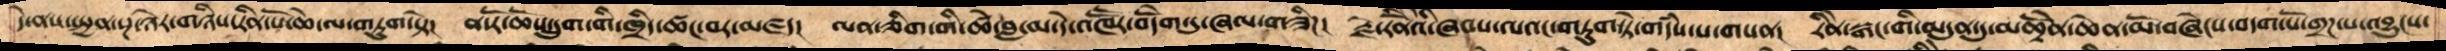དེ་ནས་སྤྱན་སྔ་ཉེར་གཉིས་རིན་པོ་ཆེ་ལ་གཏུག་སྟེ།  ན་རོ་ཆོས་དྲུག་གི་ཁྲིད་ཚང་བར་མཛད།  ལན་ཅིག་གི་ཚེ་བླ་མ་དེ་འཁཽར་བདོེག་དུ་ཞལ་གཟིཌ།  རྗེ་རིནོེའི་ཞབས་ལའང་གཏུག་ཏེ་གདཾས་པ་གསན། རིནེ་སྒང་གི་མདུན་དུ་མཆྟོེན་ཆེན་མོ་བཞེངས་བདག་པོ་་གྲཌ་པ་འབྱུངས་
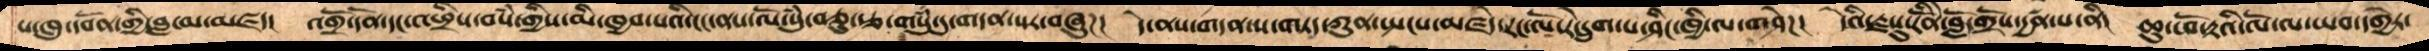པ་ཁུ་དབོན་གྱི་བླ་མ་མཛད།  འགྲོ་དོན་དང་འཕྲིས་བསཾ་གྱིས་མི་ཁྱབ་པའི་ངང་ནས་ལོ་སུཾ་བཅུ་རྩ་གསུཾ་དུ་གདན་སར་བཞུཌ།  དེ་ནས་གདན་ས་གཏད་ཀུན་སྤངས་མཛདེ་རང་ལོ་རེ་དྲུག་པ་ཤིང་ཁྱི་ལ་གཤེཌ།  དེའི་རྗསུ་རོིནེ་བློ་གྲོས་དྱཚན་པ་ནི།  ཆུ་ཕོ་རྟའི་ལོ་ལ་ཡབ་དགྱེར་
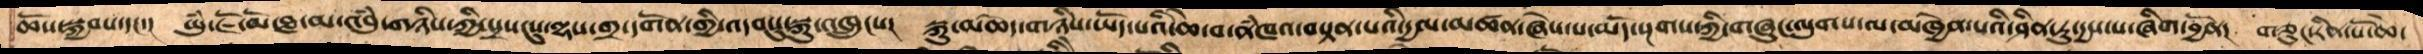ཆོས་སྐྱབས་དང་།  ཡུཾ་ཇོ་མོ་བླ་མ་འབུཾ་གཉིས་ཀྱི་སྲས་སུ་ལྷས་གྲ་དགོན་གྱི་འདབསུ་སྐུ་འཁྲུངས།  སྐུ་མཆེད་གཉིས་ཡོད་པའི་ཆེ་བ་ནཾཁའ་བསྟན་པའི་དྱལ་མཚན་ཞེས་པ་མདོ་སྔགས་ཀྱི་གཞུང་ལུགས་ལ་མཁྱེན་པའི་ཤིན་ཏུ་དྱས་པ་ཞིག་བྱོན།  གཅུང་རིན་པོ་ཆེ་
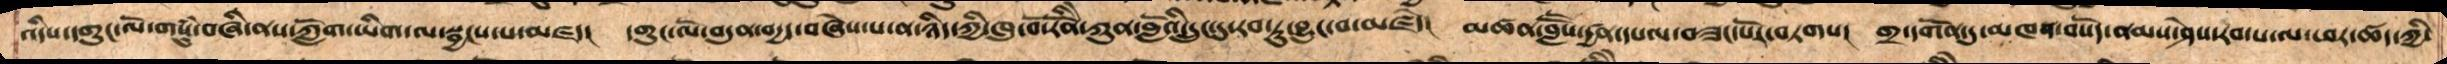འདིས་དགུང་ལོ་གསུཾ་བཞི་ནས་ཀློག་ཡིག་ལ་སྦྱངས་པ་མཛད།  དགུང་ལོ་བདུན་བདྱད་བཞེས་པ་ན་ཉིད་ཀྱི་ཁུ་བོ་རོནེི་ཀུན་བློའི་དྲུང་དུ་རབ་ཏུ་བྱུང་བ་མཛད།   མཚན་བླཽས་དྱཚན་དཔལ་བཟང་པོར་བཏགས།  གྲ་དགོན་དུ་མཁན་བསོད་ནམས་ཤེས་རབ་པ་ལ་ཕར་ཚད་ཀྱི་
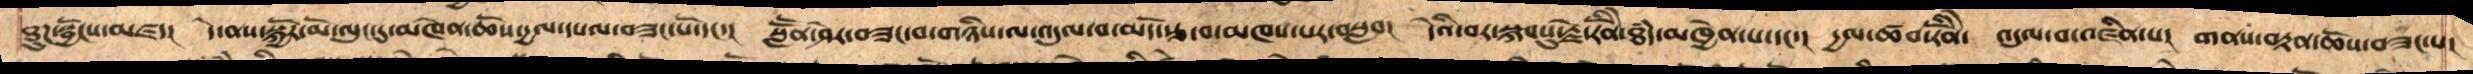ཐུཌ་སྦྱོངས་མཛད།  དེ་ནས་སྐྱོར་མོ་ལུང་དུ་མཁོན་་ཆོས་དྱལ་དཔལ་བཟང་པོ་དང་།  སློོོནོ་ཤེར་བཟང་བ་གཉིས་ལ་འདུལ་བ་མདོ་རྩ་བ་མཁས་པར་བསླབ།  དེའི་བར་སྐབསུ་རྗེ་རིེནོ་ཐཾད་མཁྱེན་པ་དང་ང  དྱལ་ཚབ་རིནོེ་ འདུལ་བ་འཛིན་པ། གནས་བརྟན་ཆོས་བཟང་པ།
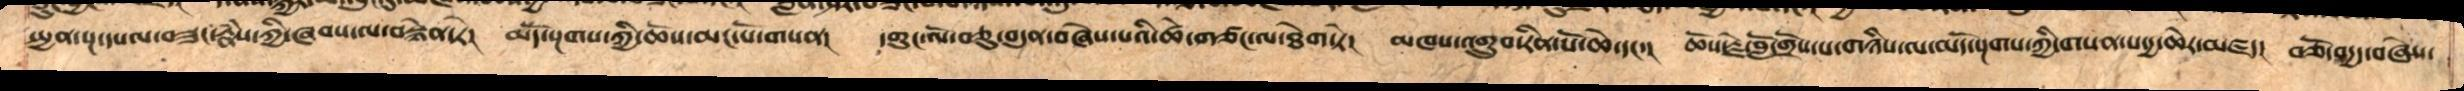སྤྱན་སྔ་དཔལ་བཟང་རྣྃས་ཀྱི་ཞབས་ལ་བསྙེན་ཏེ།   མདོ་སྔགས་ཀྱི་ཆོས་མང་པོ་གསན།   དགུང་ལོ་བཅུ་བདུན་བཞེས་པའི་ཚེ་གཙང་ལ་ཐེག་ཏེ།   མཁས་འགྲུབ་རིན་པོ་ཆེ་དང་།  ཆོས་རྗེ་བློ་གྲོས་པ་གཉིས་ལ་མདོ་སྔགས་ཀྱི་གསན་པ་དྱ་ཆེར་མཛད།  བཅོ་བདྱད་བཞེས་
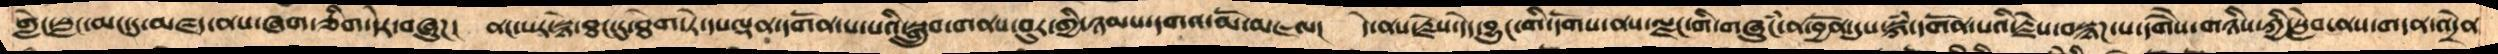གླིང་སླང་མང་དུ་མཛད་ནས་ཞག་ཅིག་དེར་བཞུཌ།   ནང་པར་སྙེ་ཐང་དུ་ཐེག་ཏེ་དཔལྡན་དགོན་པ་པའི་སྒྲུབ་གནས་བུར་གྱི་ཉམས་དགའ་མོ་མཇལ།  དེ་ནས་རྗེས་དེད་བྱུང་གི་དགོས་ནས་ལྗང་གི་གཞུངྃ་ན་བྱོན་དུས་སྐྃ་དགོན་པའི་རྗེས་བསྙཌ་པ་དགཻས་གཉིས་ཀྱིས་སླེབ་ནས་གདན་འདྲེན
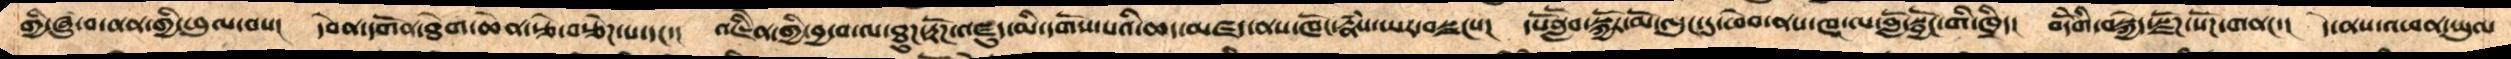གྱི་ཞུ་བ་ནན་གྱི་ཕུལ་བས། དབེན་དགོན་ཐེག་ཆེན་རྩེ་བརྩིཌ་པ་དང་། འཇིེན་གྱི་བྱ་བ་ལ་ཐུཌ་རྟོཌ་འཇུ་མི་དགོས་པའི་ཆད་མཛད་ནས་ཁོང་རྣྃས་ཡར་བསྫངས། དཔོནློབ་སྐྱོར་མོ་ལུང་དུ་ཕེབ་ནས་ཁ་ལ་བློ་སྦྱོང་གི་ཁྲིད།  བདོེགི་བསྐྱེད་སྫོཌ་སོཌ་གནང་།  དེ་ནས་འཕན་ཡུལ
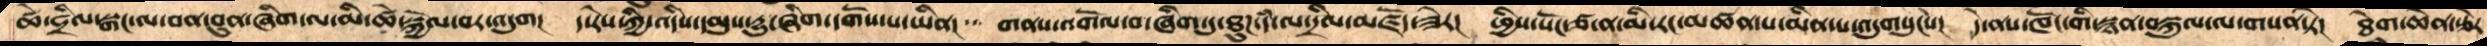ཚེ་ཧྲིལ་སྒང་ལ་བན་བུན་ཞིག་ལ་མི་ཚེ་སྐྱེལ་བར་འདུག།  ད་རེས་ཀྱི་འདིས་དམུས་དྱུ་ཞིག་དགོས་པ་ཡིན།  གནས་འགོལ་བ་ཞིག་དུ་ཐུཌ་དཾ་ལ་དྲིལ་མཛོད་ཟེར།  ཕྱིས་སོང་ཙ་ན་མི་རང་མཚན་པ་མིན་པ་འདུགསུངས།  དེ་ནས་ཁོང་གི་སྙན་བསྐུལ་ལ་གསན་ཏེ།  ཐེག་ཆེན་རྩེར
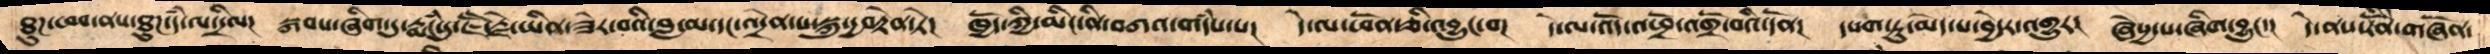ཐུཌ་ཕབ་ནས་ཐུཌ་དཾ་ལ་དྲིལ།  སྐབས་ཞིག་དུ་རྨངཾ་དུ་ཇཽ་རྗེ་ཡིན་ཟེར་བའི་བླ་མ་དང་འདྲེན་པ་སྐུ་དྱབརྟེན་ཏེ།  ཁྱོད་ཀྱི་མིང་ནི་བཀའ་གདཾས་པ།  དེ་ལ་ཕན་ཅི་འབྱུང་བ།  དེ་ལ་འོད་འཕྲོ་འགྲོ་བའི་དོན།  དཔག་ཏུ་མེད་པ་བྱེདར་འགྱུར།  ཞེསྱ་པ་ཞིག་བྱུང་།  དེ་ནས་རིནོེ་གཞོན་
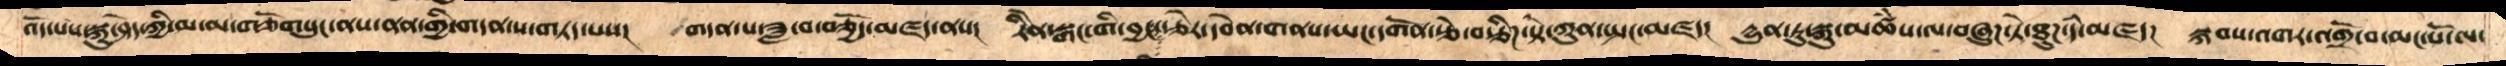འོད་པས་སྐུ་ཤེད་ཀྱི་མ་གཅོགསུང་ནས་ནན་གྱི་གདན་ས་གཏད་པས།  གདན་ས་ཟླ་བ་བཅྱོདམཛད་ནས།  རིནེ་སྒང་གི་བྱང་རྩེར་དབེན་གནས་ཡང་དགོན་རྩེ་བརྩིཌ་སྟེ་ཀུན་སྤང་མཛད།  དྱུན་ཏུ་སྐུ་མཚཾས་ལ་བཞུཌ་ཏེ་ཐུཌ་དཾ་མཛད། སྐབས་འགར་འགྲོ་བ་མང་པོ་ལ་
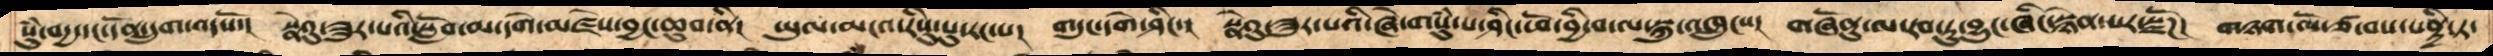སུཾ་བདྱ་དང་དོན་དྲུག་འདསོ།  སྣེའུ་ཟུར་པའི་སློབ་མ་དགེ་མཛེས་བྱང་ཆུབ་ནི།  ཡུལ་མངའ་རིསུ་པུ་རང་པ།  གདུང་དགེ་ཤིང་།  སྣེའུ་ཟུར་པའི་ཞེ་གསུཾ་པ་ཤིང་ཕོ་བྱི་བ་ལ་སྐུ་འཁྲུངས།  གཞོནུ་ལ་རབ་ཏུ་བྱུང་ཞིང་སྙེན་པར་སྫོཌ།   གཉག་ལོ་ཙ་བས་པཎྜི་ཏ་
